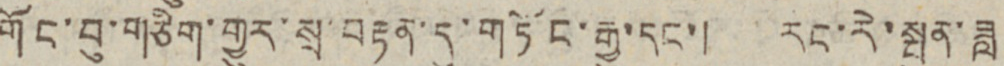གོང་བུ་གཅིག་གྱུར་སྲ་བརྟན་དུ་གཏོང་རྒྱུ་དང་། རང་རེ་སྤུན་ཟླ
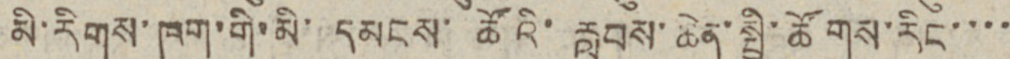མི་རིགས་ཁག་གི་མི་དམངས་ཚོའི་རླབས་ཆེན་སྤྱི་ཚོགས་རིང་་་་
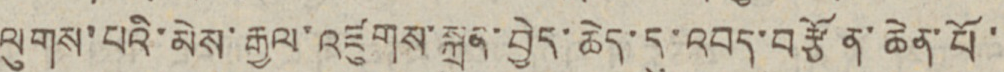ལུགས་པའི་མེས་རྒྱལ་འཛུགས་སྐྲུན་བྱེད་ཆེད་དུ་འབད་བརྩོན་ཆེན་པོ་
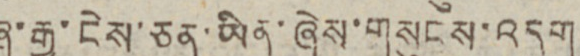ཞུ་རྒྱུ་ངེས་ཅན་ཡིན་ཞེས་གསུངས་འདུག
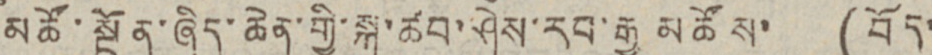མཚོ་སྔོན་ཞིད་ཆེན་གྱི་སྐུ་ཚབ་ཤེས་རབ་རྒྱ མཚོས་ (བོད་
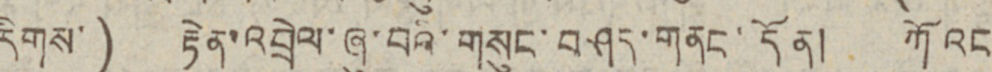རིགས་) རྟེན་འབྲེལ་ཞུ་བའི་གསུང་བཤད་གནང་དོན། ཀོའང
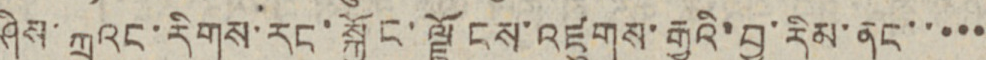ཤིས་ཀྲུའང་རིགས་རང་སྐྱོང་ལྗོངས་འཛུགས་རྒྱུའི་བྱ་རིམ་ནང་་་་་
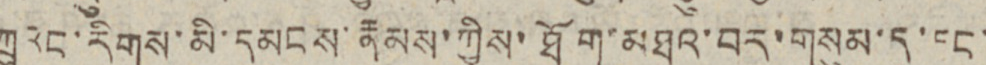ཀྲུའང་རིགས་མི་དམངས་རྣམས་ཀྱིས་ཐོག་མཐའ་བར་གསུམ་དུ་ཏང་
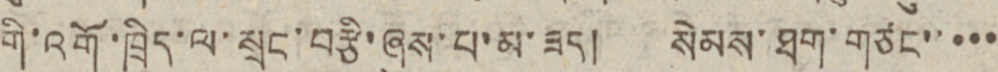གི་འགོ་ཁྲིད་ལ་སྲུང་བརྩི་ཞུས་པ་མ་ཟད། སེམས་ཐག་གཙང་་་་་
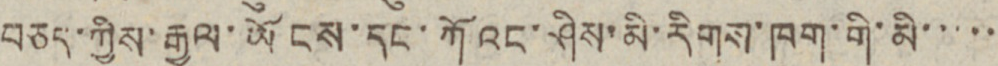བཅད་ཀྱིས་རྒྱལ་ཡོངས་དང་ཀོའང་ཤིས་མི་རིགས་ཁག་གི་མི་་་་་
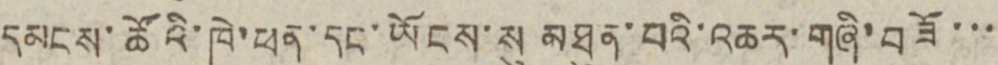དམངས་ཚོའི་ཁེ་ཕན་དང་ཡོངས་སུ མཐུན་པའི་འཆར་གཞི་བཟོ་་་
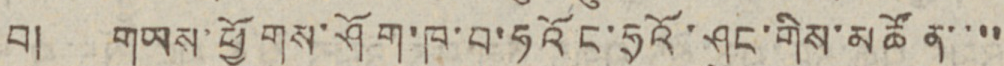བ། གཡས་ཕྱོགས་ཤོག་ཁ་བ་ཧའོང་ཧྲའོ་ཤུང་གིས་མཚོན་་་་
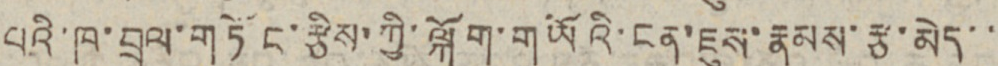པའི་ཁ་བྲལ་གཏོང་རྩིས་ཀྱི་ལྐོག་གཡོའི་ངན་ཇུས་རྣམས་རྩ་མེད་་
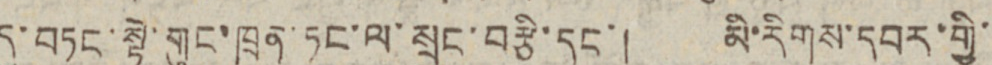ཏུ་བཏང་སྟེ་གུང་ཁྲན་ཏང་ལ་སྲུང་བརྩི་དང་། མི་རིགས་དབར་གྱི་
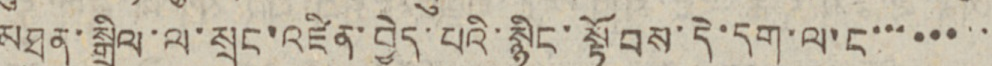མཐུན་སྒྲིལ་ལ་སྲུང་འཛིན་བྱེད་པའི་སྙིང་སྟོབས་དེ་དག་ལ་ང་་་་་་་་
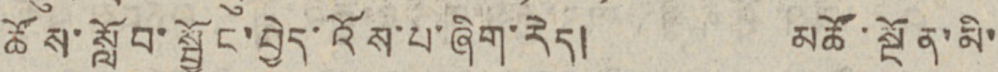ཚོས་སློབ་སྦྱོང་བྱེད་འོས་པ་ཞིག་རེད། མཚོ་སྔོན་མི་
